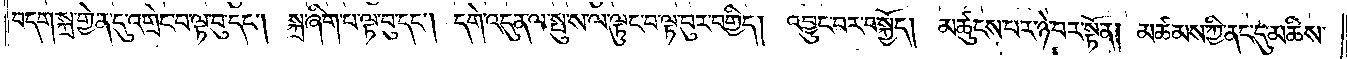བདག་སྐྲ་གྱེན་དུ་འགྲེང་བ་ལྟ་བུ་དང༌། སྐྲ་ཞིག་པ་ལྟ་བུ་དང༌། དགེ་འདུན་ལ་སྤུ་ས་ལ་ལྟུང་བ་ལྟ་བུར་བགྱིད། འབྱུང་བར་བསྐྱོད། མཚུངས་པར་ཉེ་བར་སྟོན། མཚམས་ཀྱི་ནང་དུ་མཆིས་
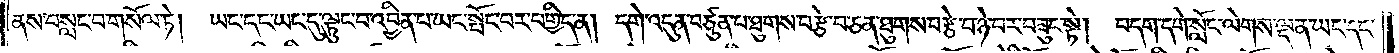ནས་བསླང་བ་གསོལ་ཏེ། ཡང་དང་ཡང་དུ་ལྟུང་བ་འབྱིན་པ་ཡང་སྤོང་བར་བགྱིད་ན། དགེ་འདུན་བཙུན་པ་ཐུགས་བརྩེ་བ་ཅན་ཐུགས་བརྩེ་བ་ཉེ་བར་བཟུང་སྟེ། བདག་དགེ་སློང་ལེགས་ལྡན་ཡང་དང་
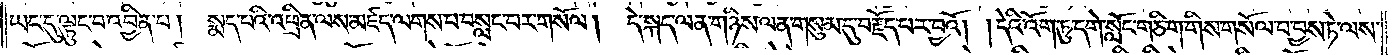ཡང་དུ་ལྟུང་བ་འབྱིན་པ། སྨད་པའི་འཕྲིན་ལས་མཛད་ལགས་པ་བསླང་བར་གསོལ། དེ་སྐད་ལན་གཉིས་ལན་གསུམ་དུ་བརྗོད་པར་བྱའོ། །དེའི་འོག་ཏུ་དགེ་སློང་གཅིག་གིས་གསོལ་བ་བྱས་ཏེ་ལས་
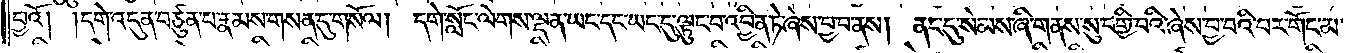བྱའོ། །དགེ་འདུན་བཙུན་པ་རྣམས་གསན་དུ་གསོལ། དགེ་སློང་ལེགས་ལྡན་ཡང་དང་ཡང་དུ་ལྟུང་བ་འབྱིན་ཏེ་ཞེས་བྱ་བ་ནས། ནང་དུ་སེམས་ཞིག་གནས་སུ་བགྱི་བའི་ཞེས་བྱ་བའི་བར་གོང་མ་
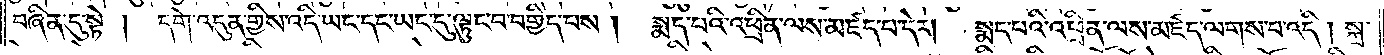བཞིན་དུ་སྟེ། དགེ་འདུན་གྱིས་འདི་ཡང་དང་ཡང་དུ་ལྟུང་བ་བགྱིད་པས། སྨད་པའི་འཕྲིན་ལས་མཛད་པ་དེར། སྨད་པའི་འཕྲིན་ལས་མཛད་ལགས་པ་འདི། སྐྲ་
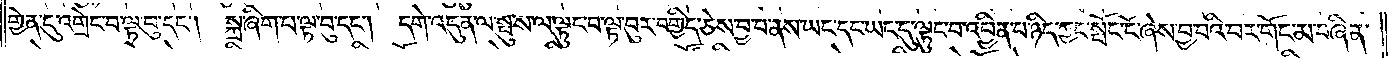གྱེན་དུ་འགྲེང་བ་ལྟ་བུ་དང༌། སྐྲ་ཞིག་པ་ལྟ་བུ་དང༌། དགེ་འདུན་ལ་སྤུ་ས་ལ་ལྟུང་བ་ལྟ་བུར་བགྱིད་ཅེས་བྱ་བ་ནས་ཡང་དང་ཡང་དུ་ལྟུང་བ་འབྱིན་པ་ཉིད་ཀྱང་སྤོང་ངོ་ཞེས་བྱ་བའི་བར་གོང་མ་བཞིན་
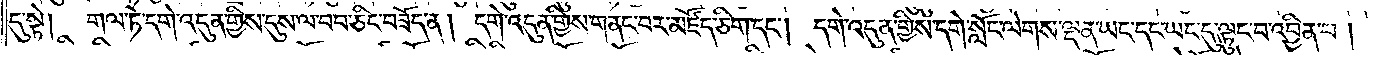དུ་སྟེ། གལ་ཏེ་དགེ་འདུན་གྱིས་དུས་ལ་བབ་ཅིང་བཟོད་ན། དགེ་འདུན་གྱིས་གནང་བར་མཛོད་ཅིག་དང༌། དགེ་འདུན་གྱིས་དགེ་སློང་ལེགས་ལྡན་ཡང་དང་ཡང་དུ་ལྟུང་བ་འབྱིན་པ།
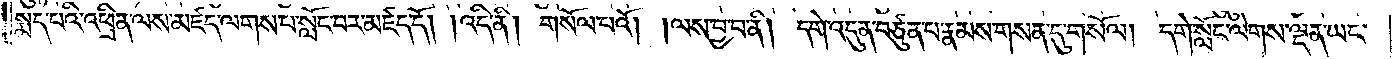སྨད་པའི་འཕྲིན་ལས་མཛད་ལགས་པ་སློང་བར་མཛད་དོ། །འདི་ནི། གསོལ་བའོ། །ལས་བྱ་བ་ནི། དགེ་འདུན་བཙུན་པ་རྣམས་གསན་དུ་གསོལ། དགེ་སློང་ལེགས་ལྡན་ཡང་
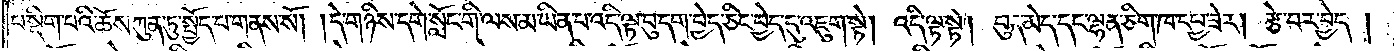པ་སྡིག་པའི་ཆོས་ཀུན་ཏུ་སྤྱོད་པ་གནས་སོ། །དེ་གཉིས་དགེ་སློང་གི་ལས་མ་ཡིན་པ་འདི་ལྟ་བུ་དག་བྱེད་ཅིང་བྱེད་དུ་འཇུག་སྟེ། འདི་ལྟ་སྟེ། བུད་མེད་དང་ལྷན་ཅིག་ཁ་དཔྱ་ཟེར། རྩེ་བར་བྱེད།
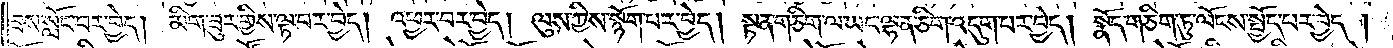ཟས་སློང་བར་བྱེད། མིག་ཟུར་གྱིས་ལྟ་བར་བྱེད། འཕྱར་བར་བྱེད། ལུས་ཀྱིས་སྙོག་པར་བྱེད། སྟན་གཅིག་ལ་ཡང་ལྷན་ཅིག་འདུག་པར་བྱེད། སྣོད་གཅིག་ཏུ་ལོངས་སྤྱོད་པར་བྱེད།
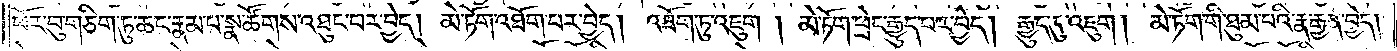ཕོར་བུ་གཅིག་ཏུ་ཆང་རྣམ་པ་སྣ་ཚོགས་འཐུང་བར་བྱེད། མེ་ཏོག་འཐོག་པར་བྱེད། འཐོག་ཏུ་འཇུག། མེ་ཏོག་ཕྲེང་རྒྱུད་པར་བྱེད། རྒྱུད་དུ་འཇུག། མེ་ཏོག་གི་ཐུམ་པའི་རྣ་རྒྱན་བྱེད།
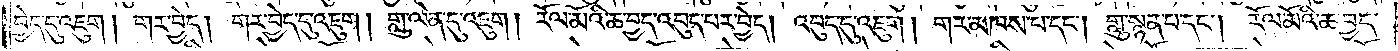བྱེད་དུ་འཇུག། གར་བྱེད། གར་བྱེད་དུ་འཇུག། གླུ་ལེན་དུ་འཇུག། རོལ་མོའི་ཆ་བྱད་འབུད་པར་བྱེད། འབུད་དུ་འཇུག། གར་མཁས་པ་དང༌། གླུ་སྙན་པ་དང༌། རོལ་མོའི་ཆ་བྱད་
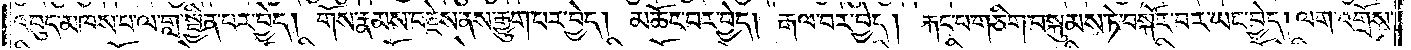འབུད་མཁས་པ་ལ་གླ་སྦྱིན་པར་བྱེད། གོས་རྣམས་བརྗེས་ནས་རྒྱུག་པར་བྱེད། མཆོང་བར་བྱེད། རྒལ་བར་བྱེད། རྐང་པ་གཅིག་བསྐུམས་ཏེ་བསྐོར་བར་ཡང་བྱེད། ལག་འགྲོས་
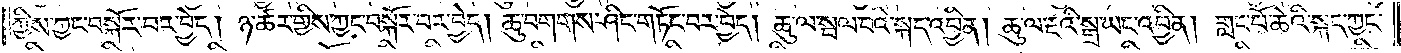ཀྱིས་ཀྱང་བསྐོར་བར་བྱེད། ཉ་ཚར་གྱིས་ཀྱང་བསྐོར་བར་བྱེད། ཆུ་བགགས་ཤིང་གཏོང་བར་བྱེད། ཆུ་ལ་སྦལ་བའི་སྐད་འབྱིན། ཆུ་ལ་རྔའི་སྒྲ་ཡང་འབྱིན། གླང་པོ་ཆེའི་སྐད་ཀྱང་
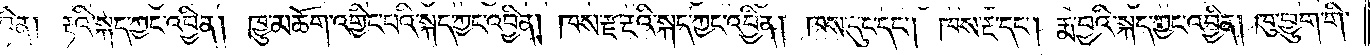འབྱིན། རྟའི་སྐད་ཀྱང་འབྱིན། ཁྱུ་མཆོག་འགྱིང་པའི་སྐད་ཀྱང་འབྱིན། ཁས་རྫ་རྔའི་སྐད་ཀྱང་འབྱིན། ཁས་དུང་དང༌། ཁས་རྔ་དང༌། རྨ་བྱའི་སྐད་ཀྱང་འབྱིན། ཁུ་བྱུག་གི་
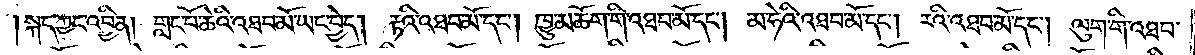སྐད་ཀྱང་འབྱིན། གླང་པོ་ཆེའི་འཐབ་མོ་ཡང་བྱེད། རྟའི་འཐབ་མོ་དང༌། ཁྱུ་མཆོག་གི་འཐབ་མོ་དང༌། མ་ཧེའི་འཐབ་མོ་དང༌། རའི་འཐབ་མོ་དང༌། ལུག་གི་འཐབ་
